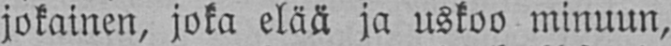jokainen, joka elää ja uskoo minuun,
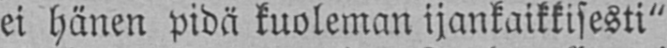ei hänen pidä kuoleman ijankaikkisesti"
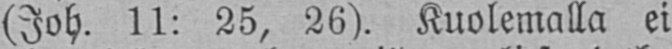(Joh. 11: 25, 26). Kuolemalla ei
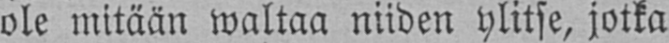ole mitään waltaa niiden ylitse, jotka
